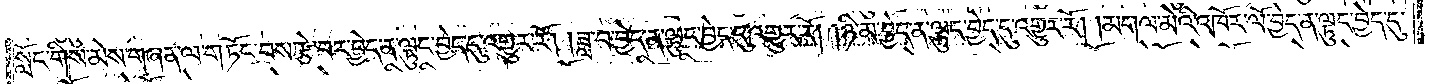སློང་གིས་མེས་གཞན་ལ་གཏོང་བས་རྩེ་བར་བྱེད་ན་ལྟུང་བྱེད་དུ་འགྱུར་རོ། །ཟླ་བ་བྱེད་ན་ལྟུང་བྱེད་དུ་འགྱུར་རོ། །ཉི་མ་བྱེད་ན་ལྟུང་བྱེད་དུ་འགྱུར་རོ། །མགལ་མེའི་འཁོར་ལོ་བྱེད་ན་ལྟུང་བྱེད་དུ་
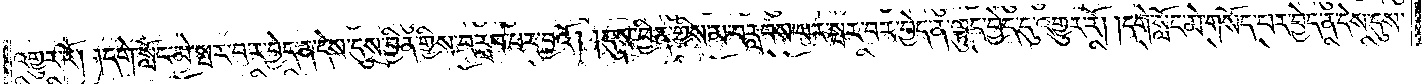འགྱུར་རོ། །དགེ་སློང་མེ་སྤར་བར་བྱེད་ན་དེས་དུས་བྱིན་གྱིས་བརླབ་པར་བྱའོ། །དུས་བྱིན་གྱིས་མ་བརླབས་པར་སྤར་བར་བྱེད་ན་ལྟུང་བྱེད་དུ་འགྱུར་རོ། །དགེ་སློང་མེ་གསོད་པར་བྱེད་ན་དེས་དུས་
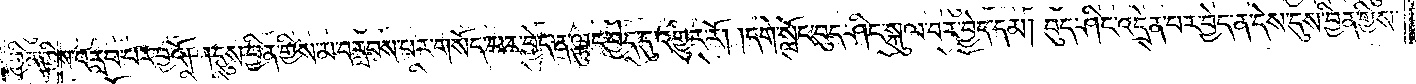བྱིན་གྱིས་བརླབ་པར་བྱའོ། །དུས་བྱིན་གྱིས་མ་བརླབས་པར་གསོད་པར་བྱེད་ན་ལྟུང་བྱེད་དུ་འགྱུར་རོ། །དགེ་སློང་བུད་ཤིང་སྐུལ་བར་བྱེད་དམ། བུད་ཤིང་འདྲེན་པར་བྱེད་ན་དེས་དུས་བྱིན་གྱིས་
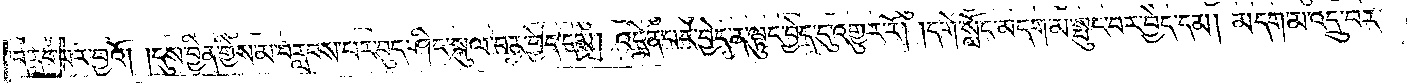བརླབ་པར་བྱའོ། །དུས་བྱིན་གྱིས་མ་བརླབས་པར་བུད་ཤིང་སྐུལ་བར་བྱེད་དམ། འདྲེན་པར་བྱེད་ན་ལྟུང་བྱེད་དུ་འགྱུར་རོ། །དགེ་སློང་མདག་མ་སྤུང་བར་བྱེད་དམ། མདག་མ་འདྲུ་བར་
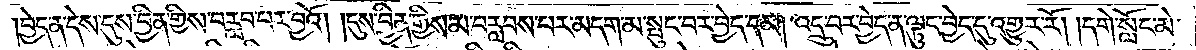བྱེད་ན་དེས་དུས་བྱིན་གྱིས་བརླབ་པར་བྱའོ། །དུས་བྱིན་གྱིས་མ་བརླབས་པར་མདག་མ་སྤུང་བར་བྱེད་དམ། འདྲུ་བར་བྱེད་ན་ལྟུང་བྱེད་དུ་འགྱུར་རོ། །དགེ་སློང་མེ་
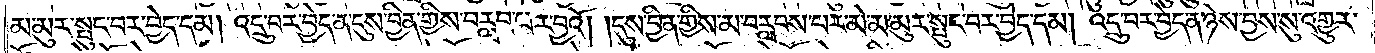མ་མུར་སྤུང་བར་བྱེད་དམ། འདྲུ་བར་བྱེད་ན་དུས་བྱིན་གྱིས་བརླབ་པར་བྱའོ། །དུས་བྱིན་གྱིས་མ་བརླབས་པར་མེ་མ་མུར་སྤུང་བར་བྱེད་དམ། འདྲུ་བར་བྱེད་ན་ཉེས་བྱས་སུ་འགྱུར་
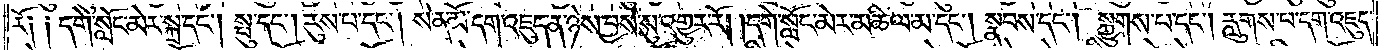རོ༑ ༑དགེ་སློང་མེར་སྐྲ་དང༌། སྤུ་དང༌། རུས་པ་དང༌། སེན་མོ་དག་འཇུད་ན་ཉེས་བྱས་སུ་འགྱུར་རོ། །དགེ་སློང་མེར་མཆིལ་མ་དང༌། སྣབས་དང༌། སྐྱུགས་པ་དང༌། རླུགས་པ་དག་འཇུད་
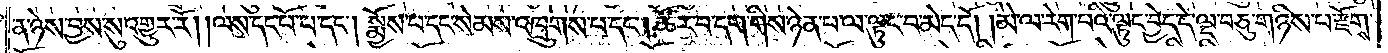ན་ཉེས་བྱས་སུ་འགྱུར་རོ། །ལས་དང་པོ་པ་དང༌། སྨྱོས་པ་དང་སེམས་འཁྲུགས་པ་དང༌། ཚོར་བ་དག་གིས་ཉེན་པ་ལ་ལྟུང་བ་མེད་དོ། །མེ་ལ་རེག་པའི་ལྟུང་བྱེད་དེ་ལྔ་བཅུ་གཉིས་པ་རྫོགས་
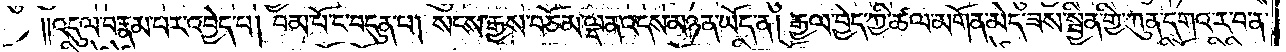༎འདུལ་བ་རྣམ་པར་འབྱེད་པ། བམ་པོ་ང་བདུན་པ། སངས་རྒྱས་བཅོམ་ལྡན་འདས་མཉན་ཡོད་ན། རྒྱལ་བྱེད་ཀྱི་ཚལ་མགོན་མེད་ཟས་སྦྱིན་གྱི་ཀུན་དགའ་ར་བ་ན་
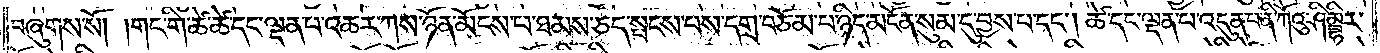བཞུགས་སོ། །གང་གི་ཚེ་ཚེ་དང་ལྡན་པ་འཆར་ཀས་ཉོན་མོངས་པ་ཐམས་ཅད་སྤངས་པས་དགྲ་བཅོམ་པ་ཉིད་མངོན་སུམ་དུ་བྱས་པ་དང༌། ཚེ་དང་ལྡན་པ་འདུན་པ་ནི་ཀོའུ་ཤིམྦྷིར་
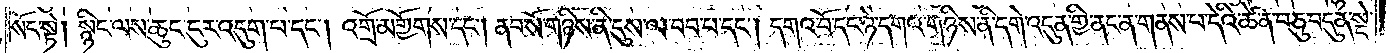སོང་སྟེ། སྙིང་ལས་ཆུང་ངུར་འདུག་པ་དང༌། འགྲོ་མགྱོགས་དང༌། ནབ་སོ་གཉིས་ནི་དུས་ལ་བབ་པ་དང༌། དགའ་བོ་དང་ཉེ་དགའ་གཉིས་ནི་དགེ་འདུན་གྱི་ནང་ན་གནས་པ་དེའི་ཚེ་ན་བཅུ་བདུན་སྡེ་
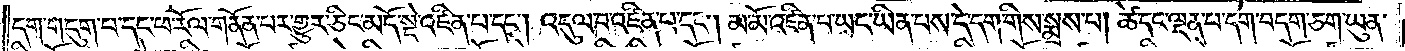དག་གདུག་པ་དང་ཕ་རོལ་གནོན་པར་གྱུར་ཅིང་མདོ་སྡེ་འཛིན་པ་དང༌། འདུལ་བ་འཛིན་པ་དང༌། མ་མོ་འཛིན་པ་ཡང་ཡིན་པས་དེ་དག་གིས་སྨྲས་པ། ཚེ་དང་ལྡན་པ་དག་བདག་ཅག་ཡུན་
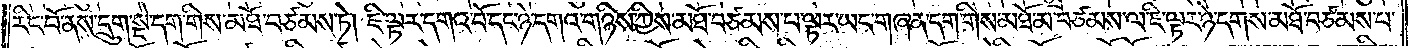རིང་པོ་ནས་དྲུག་སྡེ་དག་གིས་མཐོ་བཙམས་ཏེ། ཇི་ལྟར་དགའ་བོ་དང་ཉེ་དགའ་གཉིས་ཀྱིས་མཐོ་བཙམས་པ་ལྟར་ཡང་གཞན་དག་གིས་མཐོ་མ་བཙམས་ལ་ཇི་ལྟར་ཉེ་དགས་མཐོ་བཙམས་པ་
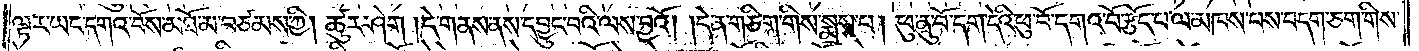ལྟར་ཡང་དགའ་བོས་མཐོ་མ་བཙམས་ཀྱི། ཚུར་ཤེག །དེ་གནས་ནས་དབྱུང་བའི་ལས་བྱའོ། །དེ་ན་གཅིག་གིས་སྨྲས་པ། ཕུ་ནུ་བོ་དག་དེའི་ཕུ་བོ་དགའ་བོ་རྩོད་པ་ལ་མཁས་པས་བདག་ཅག་གིས་
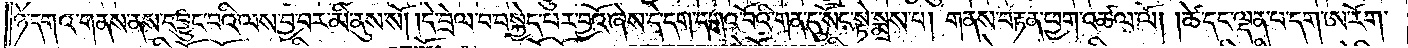ཉེ་དགའ་གནས་ནས་དབྱུང་བའི་ལས་བྱ་བར་མི་ནུས་སོ། །དེ་བྲེལ་བ་བསྐྱེད་པར་བྱའོ་ཞེས་དེ་དག་དགའ་བོའི་གན་དུ་སོང་སྟེ་སྨྲས་པ། གནས་བརྟན་ཕྱག་འཚལ་ལོ། །ཚེ་དང་ལྡན་པ་དག་ཨ་རོག་
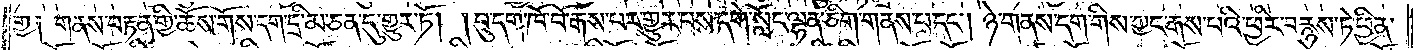གྱ༑ གནས་བརྟན་གྱི་ཆོས་གོས་དག་དྲི་མ་ཅན་དུ་གྱུར་ཏོ། །བུ་དག་ཁོ་བོ་རྒས་པར་གྱུར་པས་དགེ་སློང་ལྷན་ཅིག་གནས་པ་དང༌། ཉེ་གནས་དག་གིས་ཀྱང་རྒས་པའི་ཕྱིར་བརྙས་ཏེ་ཕྱིན་
